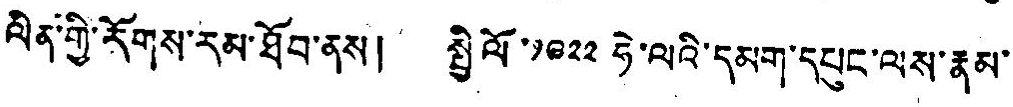ལིན་གྱི་རོགས་རམ་ཐོབ་ནས། སྤྱི་ལོ་༡༩༢༢ ཧེ་ལའི་དམག་དཔུང་ལས་རྣམ་
